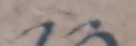༡༢
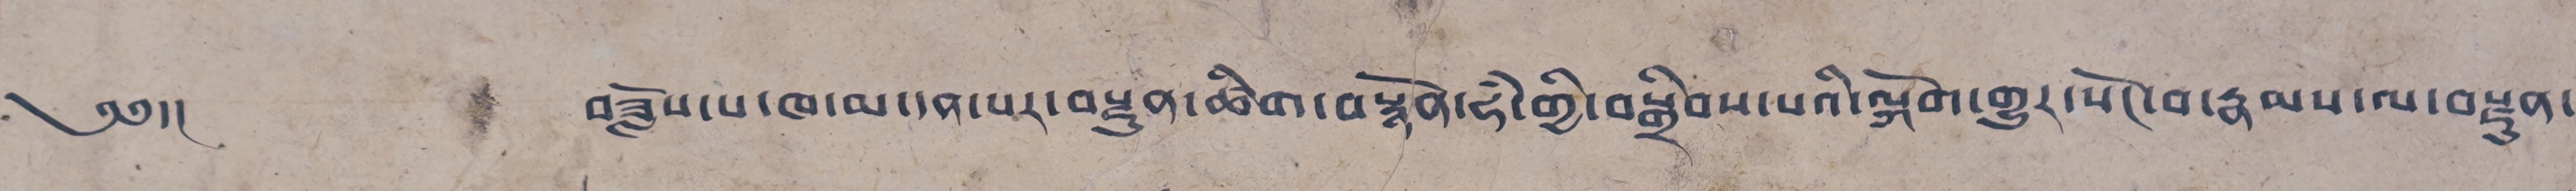༄༅།།  བཟློས་པ་ཁ་མ་དན་པར་བརྫུན་ཚིག་བསྙོན་ཧཾ་གྱི་བསྒྲིབས་པའི་ལྐོག་གྱུར་སོང་བ་རྣམས་ལ་བརྫུན་
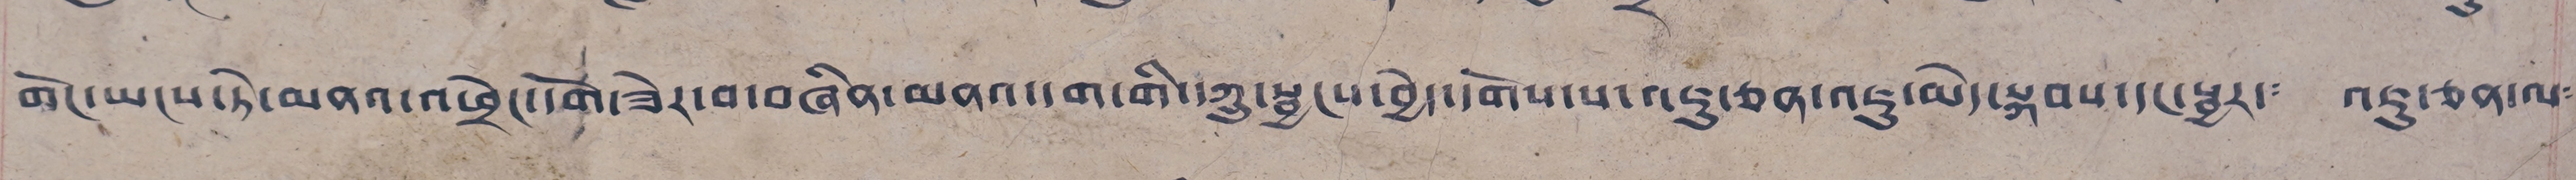གོང་ཡངས་ཏེ་མནའ་འཕྲེང་དགོ་ཟེར་བ་བཞིན་མནའ་དག་གི་ཀྲུ་སྦྱངས་བྱེད་དགོས་པ་འཇུ་ཅན་འཇུ་མེད་སྐབས་དང་སྦྱར་༴ འཇུ་ཅན་ལ༴
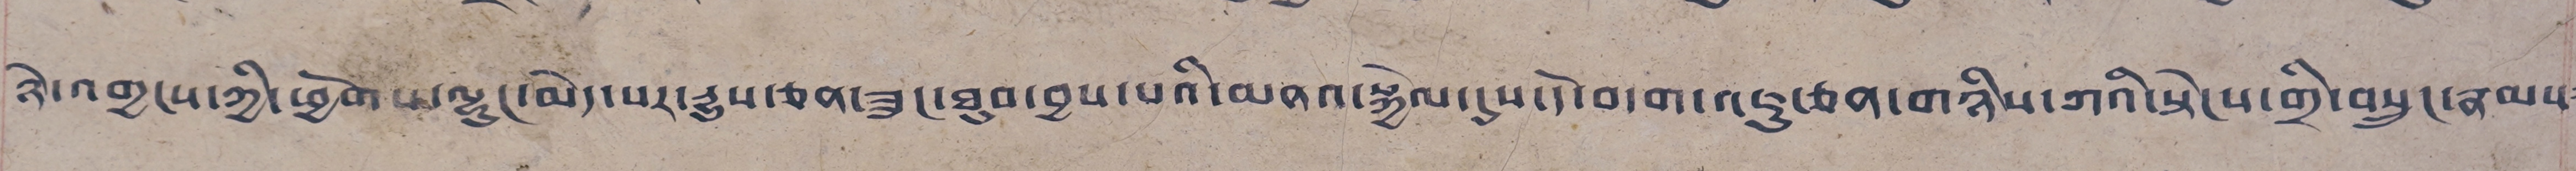ཉེ་འགྱངས་ཀྱི་ཕྱོགས་ལྷང་མེད་པར་རྒྱུས་ཅན་ཟུང་ཐུབ་བྱས་པའི་མནའ་སྐྱེལ་དུས་དེ་བདག་འཇུ་ཅན་གཉིས་ཀའི་སྟེངས་གྲི་བསྲུང་རྣམས༴
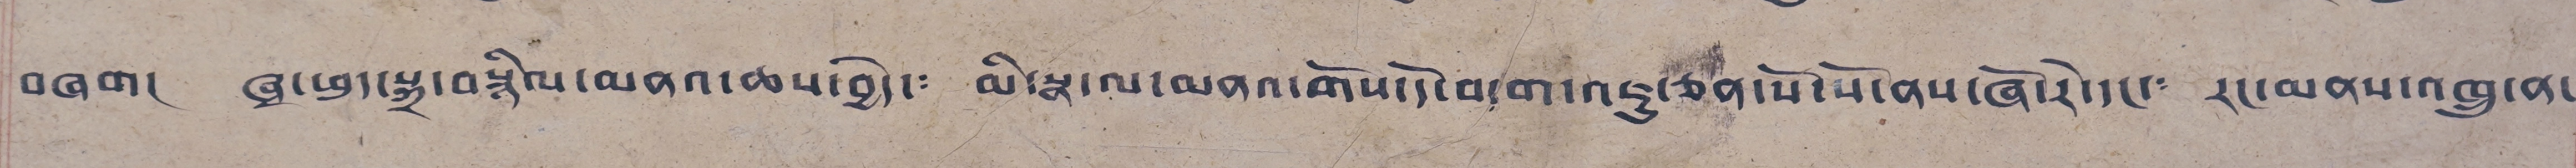བཞག། ཞྭ་ཕྲད་སྲ་བསྙིལ་མནའ་ཆས་བྱེད་༴ མི་སྣ་ལ་མནའ་གོས་དེ་བདག་འཇུ་ཅན་སོ་སོ་ནས་ཞོ་རེ་དང་༴ རང་མནས་འཁྲུ་ན་
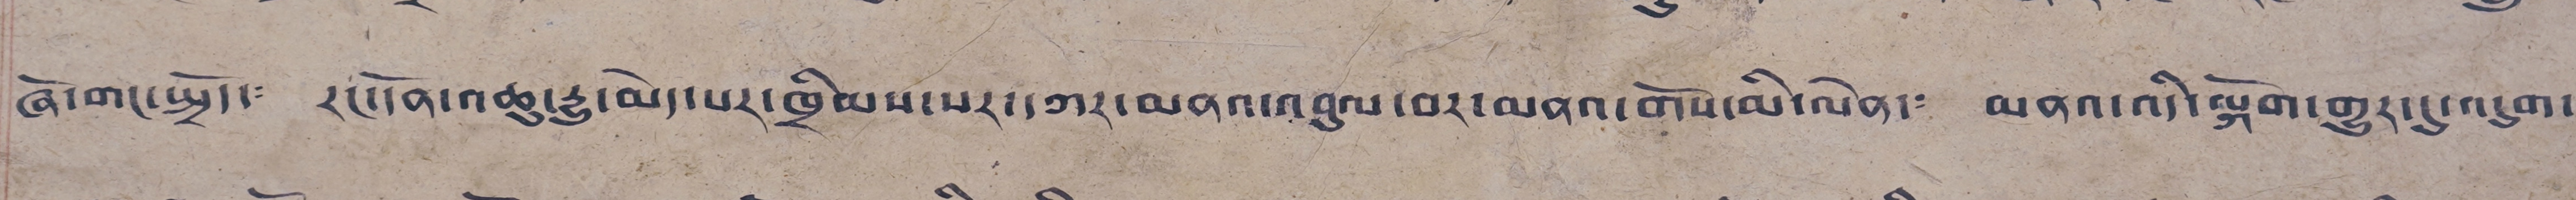ཞེ་གང་སྤྲོད་༴ རང་དོན་འཆུ་རྒྱུ་མེད་པར་ཁྲིམས་སར་དཀར་མནའ་འབུལ་བར་མནའ་གོས་མི་ལེན་༴ མནའ་འདི་ལྐོག་གྱུར་དུ་འདུག་
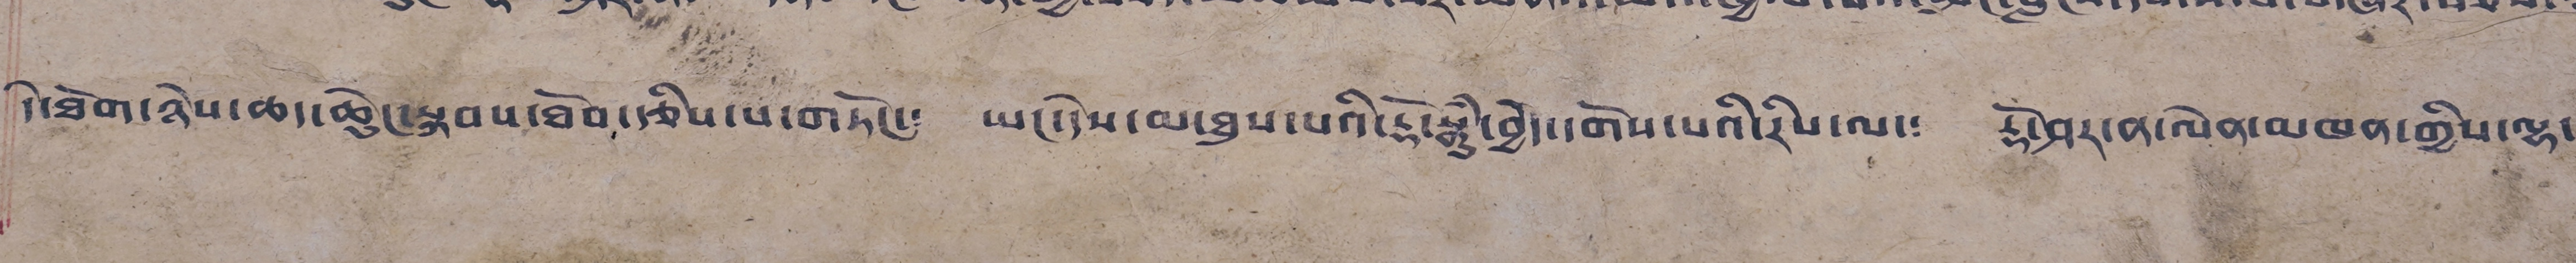དེ་ཐེག་ཉེས་ཆད་ཆེུང་སྟབས་ཐོབ་རྩིས་པ་གཏོང་༴ ཡང་དེས་མཐུས་པའི་རྡོ་སྣུཾ་བྱེད་དགོས་པའི་རིས་ལ་༴ རྡོ་ཤར་ན་ལེན་མཁན་གྱིས་ལྷ་
